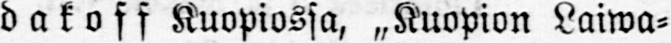dakoff Kuopiossa, „Kuopion Laiwa-
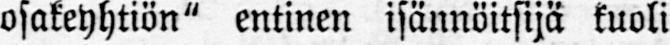osakeyhtiön" entinen isännöitsijä kuoli
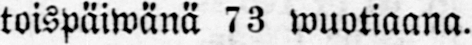toispäiwänä 73 wuotiaana.
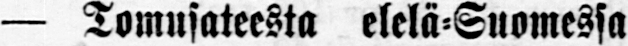— Tomusateesta elelä-Suomessa
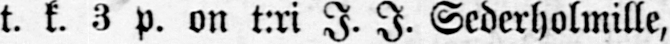t. k. 3 p. on t:ri I. I. Sederholmille,
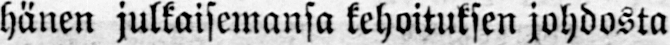hänen julkaisemansa kehoituksen johdosta
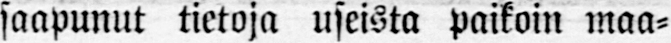saapunut tietoja useista paikoin maa-
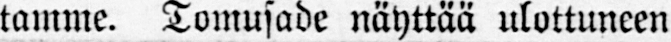tamme. Tomusade näyttää ulottuneen
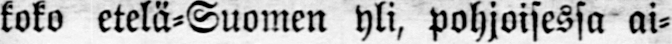koko etelä-Suomen yli, pohjoisessa ai-
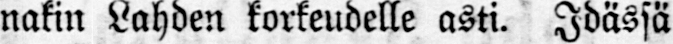nakin Lahden korkeudelle asti. Idässä
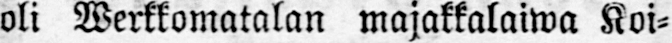oli Werkkomatalan majakkalaiwa Koi-
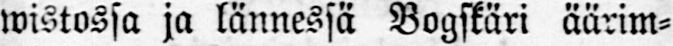wistossa ja lännessä Bogskäri äärim-
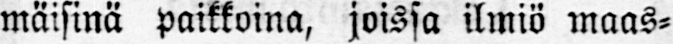mäisinä paikkoina, joissa ilmiö maas-
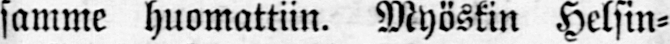samme huomattiin. Myöskin Helsin-
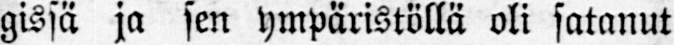gissä ja sen ympäristöllä oli satanut
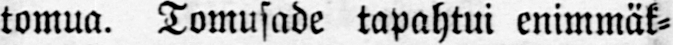tomua. Tomusade tapahtui enimmäk-
